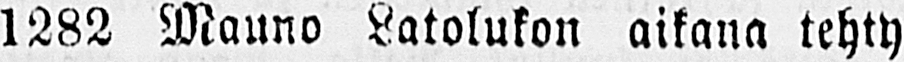1282 Mauno Latolukon aikana tehty
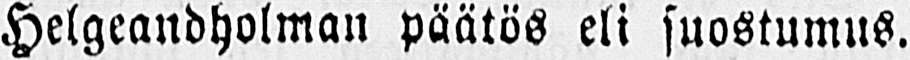Helgeandholman päätös eli suostumus.
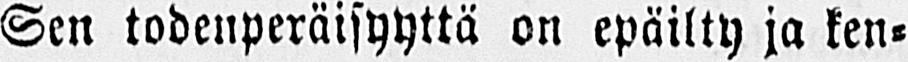Sen todenperäisyyttä on epäilty ja ken-
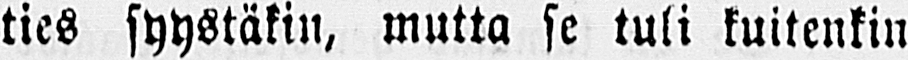ties syystäkin, mutta se tuli kuitenkin
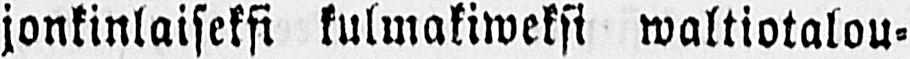jonkinlaiseksi kulmakiweksi waltiotalou-
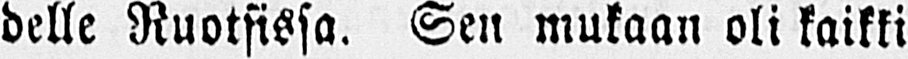delle Ruotsissa. Sen mukaan oli kaikki
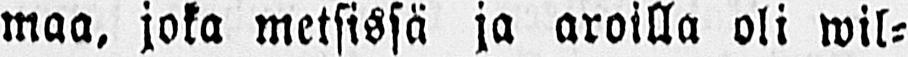maa, joka metsissä ja aroilla oli wil-
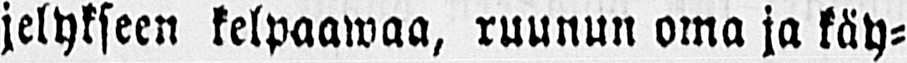jelykseen kelpaawaa, ruunun oma ja käy-
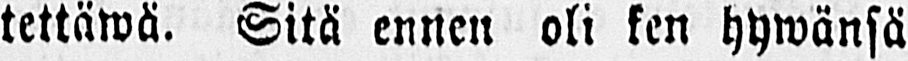tettäwä. Sitä ennen oli ken hywänsä
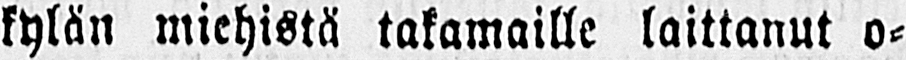kylän miehistä takamaille laittanut o-
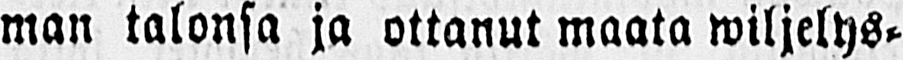man talonsa ja ottanut maata wiljelys-
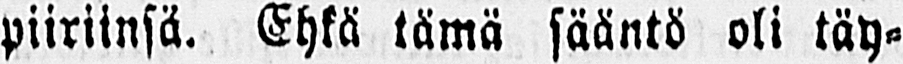piiriinsä. Ehkä tämä sääntö oli täy-
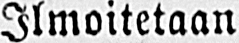Ilmoitetaan
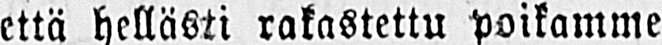että hellästi rakastettu poikamme
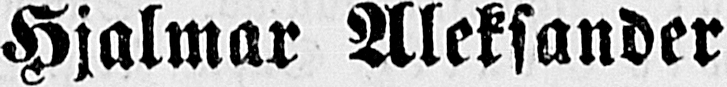Hjalmar Aleksander
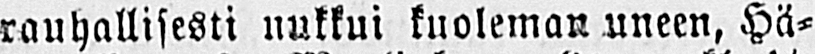rauhallisesti nukkui kuoleman uneen, Hä-
